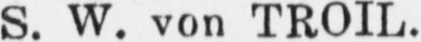S. W. von TROIL.
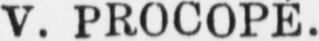V. PROCOPÉ.
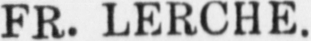FR. LERCHE.
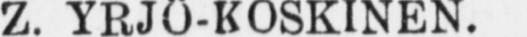Z. YRJÖ-KOSKINEN.
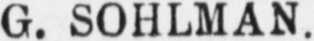J.G. SOHLMAN.
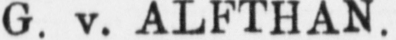G. v. ALFTHAN.
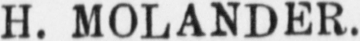H. MOLANDER.
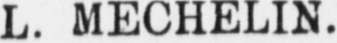L. MECHELIN.
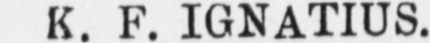K. F. IGNATIUS.
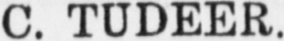C. TUDEER.
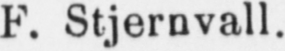F. Stjernvall.
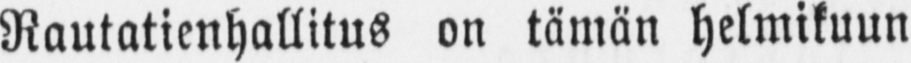Rautatienhallitus on tämän helmikuun
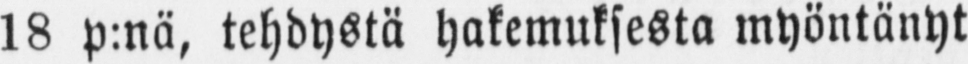18 p:nä, tehdystä hakemuksesta myöntänyt
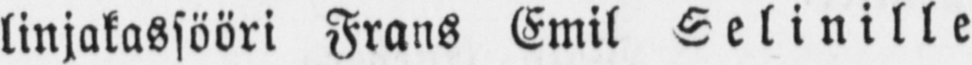linjakassööri Frans Emil Selinille
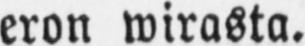eron wirasta.
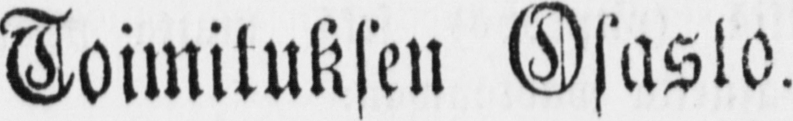Toimituksen Osasto.
